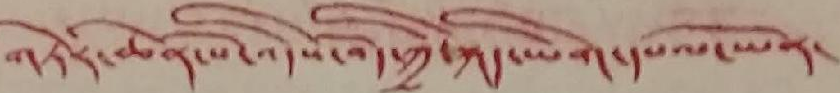གཏེར་ཆེན་པོ་འདིས་བོད་ཀྱི་སྐད་ཡིག་དཔལ་ཡོན་
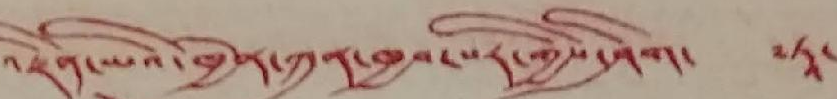འཛིན་པའི་ཁྱོན་ཀུན་ཁྱབ་པར་གྱིས་ཤིག་ ༸ཏཱ་
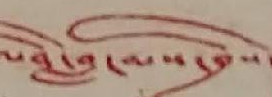ལའི་བླ་མས་བྲིས་
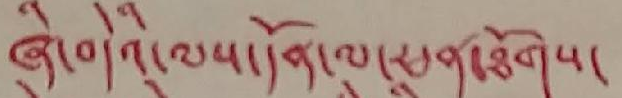ཞི་བདེའི་ལས་དོན་ལ་ཕན་ཐོགས་
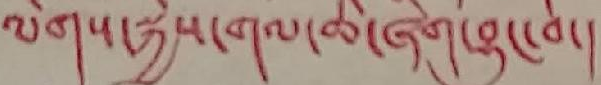ལེགས་སྐྱེས་གལ་ཆེ་ཞིག་བྱུང་བ་།
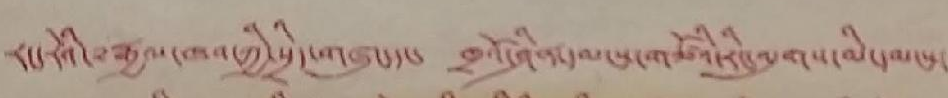རང་རེའི་རྒྱལ་ཁབ་ཀྱི་སྲིད་གཞུང་དང་ ཁྲའོ་ཤིན་དམངས་གཙོའི་རིང་ལུགས་མི་དམངས་
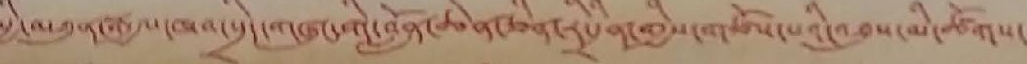སྤྱི་མཐུན་རྒྱལ་ཁབ་སྲིད་གཞུང་གི་བློན་ཆེན་ཅིན་རི་དྲིན་གྱིས་གཙོས་པའི་འབུས་མི་ཚོགས་
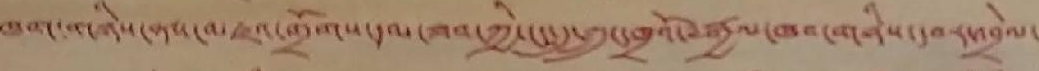ཁག་གཞིས་ནས་མཛའ་གྲོགས་དམ་ཟབ་ཀྱི་ངང་དུ་ཀྲུང་ཁྲའོ་རྒྱལ་ཁབ་གཉིས་དབར་འབྲེལ་
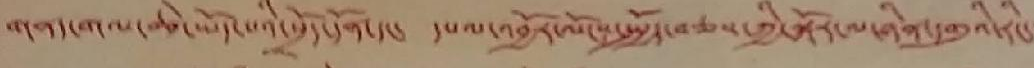གནད་གལ་ཆེ་ཡོད་པའི་བྲོད་དོན་དང་ དཔལ་འབྱོར་ལོངས་སྤྱོད་བཅས་ཀྱི་སྐོར་ལ་ཉིན་དགུའི་རིང་་་
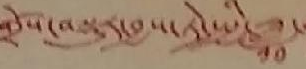གྲོས་བསྡུར་བྱས་ཏེ་སྤྱི་ཟླ་
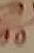༡༠
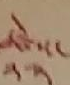ཚེས་
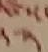༢༢
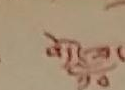བོད་ཟླ་
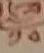༡༠
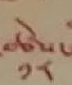ཚེས་
